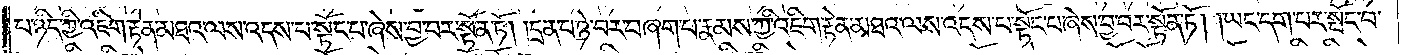པ་ཉིད་ཀྱི་འཇིག་རྟེན་མཐའ་ལས་འདས་པ་སྟོང་པ་ཞེས་བྱ་བར་སྟོན་ཏོ། །དྲན་པ་ཉེ་བར་བཞག་པ་རྣམས་ཀྱི་འཇིག་རྟེན་མཐའ་ལས་འདས་པ་སྟོང་པ་ཞེས་བྱ་བར་སྟོན་ཏོ། །ཡང་དག་པར་སྤོང་བ་
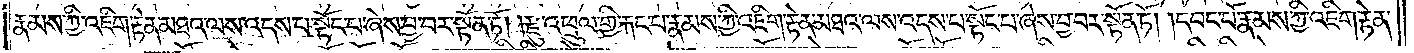རྣམས་ཀྱི་འཇིག་རྟེན་མཐའ་ལས་འདས་པ་སྟོང་པ་ཞེས་བྱ་བར་སྟོན་ཏོ། །རྫུ་འཕྲུལ་གྱི་རྐང་པ་རྣམས་ཀྱི་འཇིག་རྟེན་མཐའ་ལས་འདས་པ་སྟོང་པ་ཞེས་བྱ་བར་སྟོན་ཏོ། །དབང་པོ་རྣམས་ཀྱི་འཇིག་རྟེན་
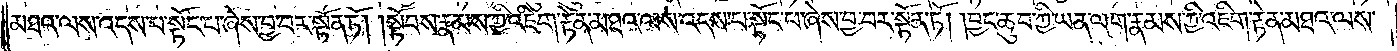མཐའ་ལས་འདས་པ་སྟོང་པ་ཞེས་བྱ་བར་སྟོན་ཏོ། །སྟོབས་རྣམས་ཀྱི་འཇིག་རྟེན་མཐའ་ལས་འདས་པ་སྟོང་པ་ཞེས་བྱ་བར་སྟོན་ཏོ། །བྱང་ཆུབ་ཀྱི་ཡན་ལག་རྣམས་ཀྱི་འཇིག་རྟེན་མཐའ་ལས་
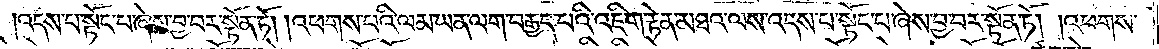འདས་པ་སྟོང་པ་ཞེས་བྱ་བར་སྟོན་ཏོ། །འཕགས་པའི་ལམ་ཡན་ལག་བརྒྱད་པའི་འཇིག་རྟེན་མཐའ་ལས་འདས་པ་སྟོང་པ་ཞེས་བྱ་བར་སྟོན་ཏོ། །འཕགས་
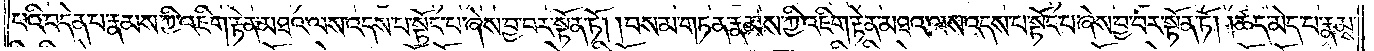པའི་བདེན་པ་རྣམས་ཀྱི་འཇིག་རྟེན་མཐའ་ལས་འདས་པ་སྟོང་པ་ཞེས་བྱ་བར་སྟོན་ཏོ། །བསམ་གཏན་རྣམས་ཀྱི་འཇིག་རྟེན་མཐའ་ལས་འདས་པ་སྟོང་པ་ཞེས་བྱ་བར་སྟོན་ཏོ། །ཚད་མེད་པ་རྣམས་
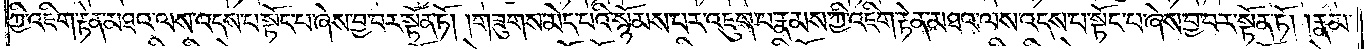ཀྱི་འཇིག་རྟེན་མཐའ་ལས་འདས་པ་སྟོང་པ་ཞེས་བྱ་བར་སྟོན་ཏོ། །གཟུགས་མེད་པའི་སྙོམས་པར་འཇུག་པ་རྣམས་ཀྱི་འཇིག་རྟེན་མཐའ་ལས་འདས་པ་སྟོང་པ་ཞེས་བྱ་བར་སྟོན་ཏོ། །རྣམ་
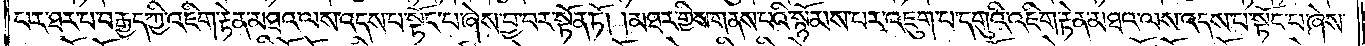པར་ཐར་པ་བརྒྱད་ཀྱི་འཇིག་རྟེན་མཐའ་ལས་འདས་པ་སྟོང་པ་ཞེས་བྱ་བར་སྟོན་ཏོ། །མཐར་གྱིས་གནས་པའི་སྙོམས་པར་འཇུག་པ་དགུའི་འཇིག་རྟེན་མཐའ་ལས་འདས་པ་སྟོང་པ་ཞེས་
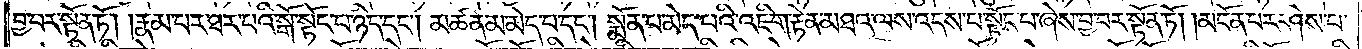བྱ་བར་སྟོན་ཏོ། །རྣམ་པར་ཐར་པའི་སྒོ་སྟོང་པ་ཉིད་དང༌། མཚན་མ་མེད་པ་དང༌། སྨོན་པ་མེད་པའི་འཇིག་རྟེན་མཐའ་ལས་འདས་པ་སྟོང་པ་ཞེས་བྱ་བར་སྟོན་ཏོ། །མངོན་པར་ཤེས་པ་
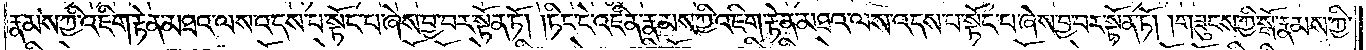རྣམས་ཀྱི་འཇིག་རྟེན་མཐའ་ལས་འདས་པ་སྟོང་པ་ཞེས་བྱ་བར་སྟོན་ཏོ། །ཏིང་ངེ་འཛིན་རྣམས་ཀྱི་འཇིག་རྟེན་མཐའ་ལས་འདས་པ་སྟོང་པ་ཞེས་བྱ་བར་སྟོན་ཏོ། །གཟུངས་ཀྱི་སྒོ་རྣམས་ཀྱི་
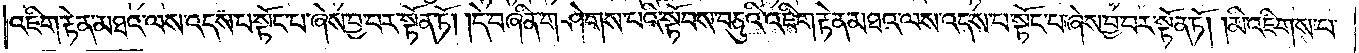འཇིག་རྟེན་མཐའ་ལས་འདས་པ་སྟོང་པ་ཞེས་བྱ་བར་སྟོན་ཏོ། །དེ་བཞིན་གཤེགས་པའི་སྟོབས་བཅུའི་འཇིག་རྟེན་མཐའ་ལས་འདས་པ་སྟོང་པ་ཞེས་བྱ་བར་སྟོན་ཏོ། །མི་འཇིགས་པ་
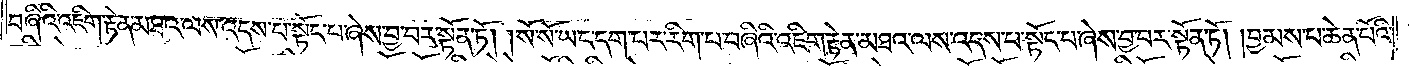བཞིའི་འཇིག་རྟེན་མཐའ་ལས་འདས་པ་སྟོང་པ་ཞེས་བྱ་བར་སྟོན་ཏོ། །སོ་སོ་ཡང་དག་པར་རིག་པ་བཞིའི་འཇིག་རྟེན་མཐའ་ལས་འདས་པ་སྟོང་པ་ཞེས་བྱ་བར་སྟོན་ཏོ། །བྱམས་པ་ཆེན་པོའི་
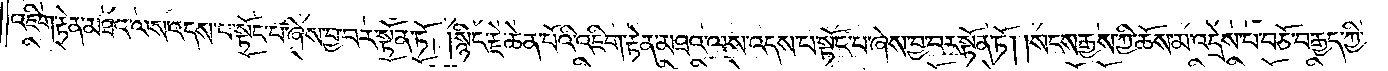འཇིག་རྟེན་མཐའ་ལས་འདས་པ་སྟོང་པ་ཞེས་བྱ་བར་སྟོན་ཏོ། །སྙིང་རྗེ་ཆེན་པོའི་འཇིག་རྟེན་མཐའ་ལས་འདས་པ་སྟོང་པ་ཞེས་བྱ་བར་སྟོན་ཏོ། །སངས་རྒྱས་ཀྱི་ཆོས་མ་འདྲེས་པ་བཅོ་བརྒྱད་ཀྱི་
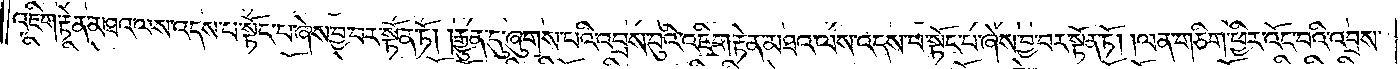འཇིག་རྟེན་མཐའ་ལས་འདས་པ་སྟོང་པ་ཞེས་བྱ་བར་སྟོན་ཏོ། །རྒྱུན་དུ་ཞུགས་པའི་འབྲས་བུའི་འཇིག་རྟེན་མཐའ་ལས་འདས་པ་སྟོང་པ་ཞེས་བྱ་བར་སྟོན་ཏོ། །ལན་གཅིག་ཕྱིར་འོང་བའི་འབྲས་
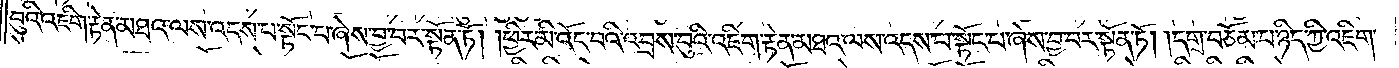བུའི་འཇིག་རྟེན་མཐའ་ལས་འདས་པ་སྟོང་པ་ཞེས་བྱ་བར་སྟོན་ཏོ། །ཕྱིར་མི་འོང་བའི་འབྲས་བུའི་འཇིག་རྟེན་མཐའ་ལས་འདས་པ་སྟོང་པ་ཞེས་བྱ་བར་སྟོན་ཏོ། །དགྲ་བཅོམ་པ་ཉིད་ཀྱི་འཇིག་
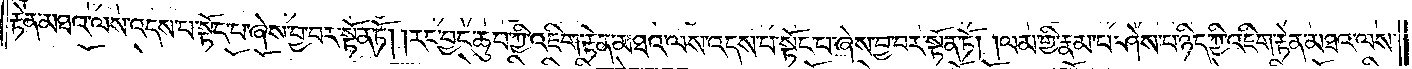རྟེན་མཐའ་ལས་འདས་པ་སྟོང་པ་ཞེས་བྱ་བར་སྟོན་ཏོ། །རང་བྱང་ཆུབ་ཀྱི་འཇིག་རྟེན་མཐའ་ལས་འདས་པ་སྟོང་པ་ཞེས་བྱ་བར་སྟོན་ཏོ། །ལམ་གྱི་རྣམ་པ་ཤེས་པ་ཉིད་ཀྱི་འཇིག་རྟེན་མཐའ་ལས་
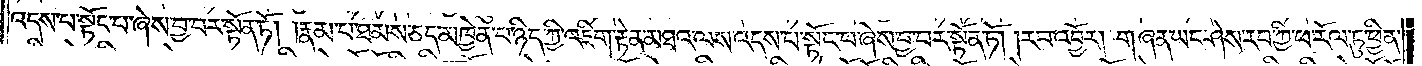འདས་པ་སྟོང་པ་ཞེས་བྱ་བར་སྟོན་ཏོ། །རྣམ་པ་ཐམས་ཅད་མཁྱེན་པ་ཉིད་ཀྱི་འཇིག་རྟེན་མཐའ་ལས་འདས་པ་སྟོང་པ་ཞེས་བྱ་བར་སྟོན་ཏོ། །རབ་འབྱོར། གཞན་ཡང་ཤེས་རབ་ཀྱི་ཕ་རོལ་ཏུ་ཕྱིན་
